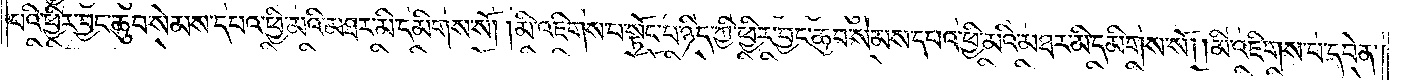པའི་ཕྱིར་བྱང་ཆུབ་སེམས་དཔའ་ཕྱི་མའི་མཐར་མི་དམིགས་སོ། །མི་འཇིགས་པ་སྟོང་པ་ཉིད་ཀྱི་ཕྱིར་བྱང་ཆུབ་སེམས་དཔའ་ཕྱི་མའི་མཐར་མི་དམིགས་སོ། །མི་འཇིགས་པ་དབེན་
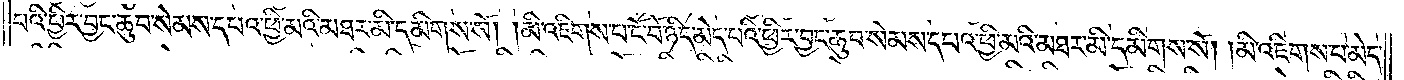པའི་ཕྱིར་བྱང་ཆུབ་སེམས་དཔའ་ཕྱི་མའི་མཐར་མི་དམིགས་སོ། །མི་འཇིགས་པ་ངོ་བོ་ཉིད་མེད་པའི་ཕྱིར་བྱང་ཆུབ་སེམས་དཔའ་ཕྱི་མའི་མཐར་མི་དམིགས་སོ། །མི་འཇིགས་པ་མེད་
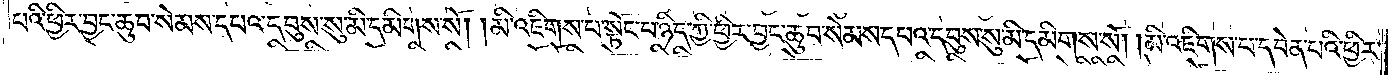པའི་ཕྱིར་བྱང་ཆུབ་སེམས་དཔའ་དབུས་སུ་མི་དམིགས་སོ། །མི་འཇིགས་པ་སྟོང་པ་ཉིད་ཀྱི་ཕྱིར་བྱང་ཆུབ་སེམས་དཔའ་དབུས་སུ་མི་དམིགས་སོ། །མི་འཇིགས་པ་དཔེན་པའི་ཕྱིར་
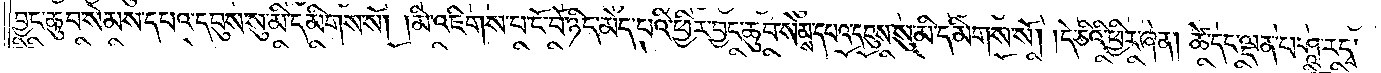བྱང་ཆུབ་སེམས་དཔའ་དབུས་སུ་མི་དམིགས་སོ། །མི་འཇིགས་པ་ངོ་བོ་ཉིད་མེད་པའི་ཕྱིར་བྱང་ཆུབ་སེམས་དཔའ་དབུས་སུ་མི་དམིགས་སོ། །དེ་ཅིའི་ཕྱིར་ཞེ་ན། ཚེ་དང་ལྡན་པ་ཤཱ་རདྭ་
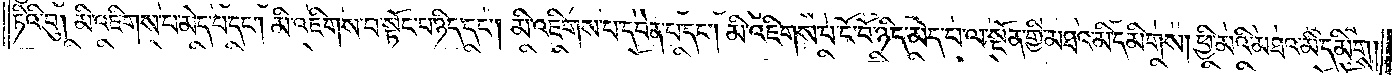ཏིའི་བུ། མི་འཇིགས་པ་མེད་པ་དང༌། མི་འཇིགས་པ་སྟོང་པ་ཉིད་དང༌། མི་འཇིགས་པ་དབེན་པ་དང༌། མི་འཇིགས་པ་ངོ་བོ་ཉིད་མེད་པ་ལ་སྔོན་གྱི་མཐའ་མི་དམིགས། ཕྱི་མའི་མཐའ་མི་དམིགས།
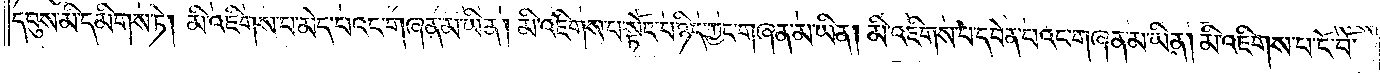དབུས་མི་དམིགས་ཏེ། མི་འཇིགས་པ་མེད་པའང་གཞན་མ་ཡིན། མི་འཇིགས་པ་སྟོང་པ་ཉིད་ཀྱང་གཞན་མ་ཡིན། མི་འཇིགས་པ་དབེན་པའང་གཞན་མ་ཡིན། མི་འཇིགས་པ་ངོ་བོ་
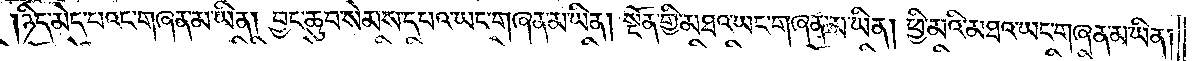ཉིད་མེད་པའང་གཞན་མ་ཡིན། བྱང་ཆུབ་སེམས་དཔའ་ཡང་གཞན་མ་ཡིན། སྔོན་གྱི་མཐའ་ཡང་གཞན་མ་ཡིན། ཕྱི་མའི་མཐའ་ཡང་གཞན་མ་ཡིན།
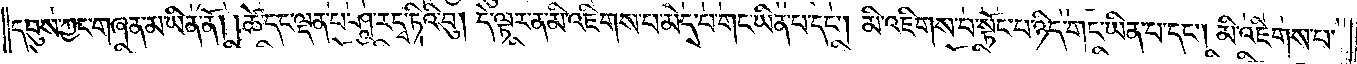དབུས་ཀྱང་གཞན་མ་ཡིན་ནོ། །ཚེ་དང་ལྡན་པ་ཤཱ་རདྭ་ཏིའི་བུ། དེ་ལྟར་ན་མི་འཇིགས་པ་མེད་པ་གང་ཡིན་པ་དང༌། མི་འཇིགས་པ་སྟོང་པ་ཉིད་གང་ཡིན་པ་དང༌། མི་འཇིགས་པ་
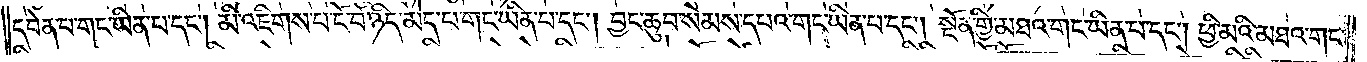དབེན་པ་གང་ཡིན་པ་དང༌། མི་འཇིགས་པ་ངོ་བོ་ཉིད་མེད་པ་གང་ཡིན་པ་དང༌། བྱང་ཆུབ་སེམས་དཔའ་གང་ཡིན་པ་དང༌། སྔོན་གྱི་མཐའ་གང་ཡིན་པ་དང༌། ཕྱི་མའི་མཐའ་གང་
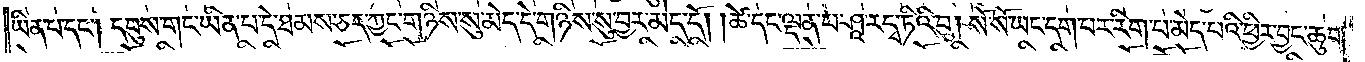ཡིན་པ་དང༌། དབུས་གང་ཡིན་པ་དེ་ཐམས་ཅད་ཀྱང་གཉིས་སུ་མེད་དེ་གཉིས་སུ་བྱར་མེད་དོ། །ཚེ་དང་ལྡན་པ་ཤཱ་རདྭ་ཏིའི་བུ། སོ་སོ་ཡང་དག་པར་རིག་པ་མེད་པའི་ཕྱིར་བྱང་ཆུབ་
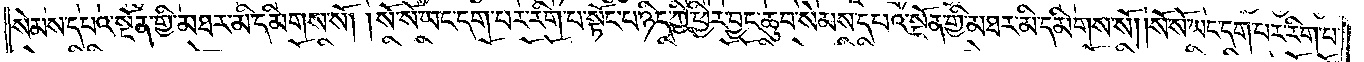སེམས་དཔའ་སྔོན་གྱི་མཐར་མི་དམིགས་སོ། །སོ་སོ་ཡང་དག་པར་རིག་པ་སྟོང་པ་ཉིད་ཀྱི་ཕྱིར་བྱང་ཆུབ་སེམས་དཔའ་སྔོན་གྱི་མཐར་མི་དམིགས་སོ། །སོ་སོ་ཡང་དག་པར་རིག་པ་
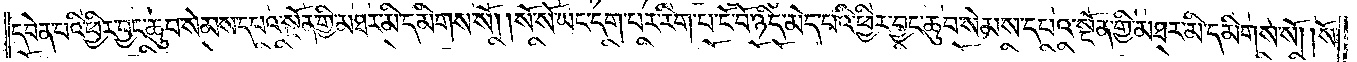དབེན་པའི་ཕྱིར་བྱང་ཆུབ་སེམས་དཔའ་སྔོན་གྱི་མཐར་མི་དམིགས་སོ། །སོ་སོ་ཡང་དག་པར་རིག་པ་ངོ་བོ་ཉིད་མེད་པའི་ཕྱིར་བྱང་ཆུབ་སེམས་དཔའ་སྔོན་གྱི་མཐར་མི་དམིགས་སོ། །སོ་
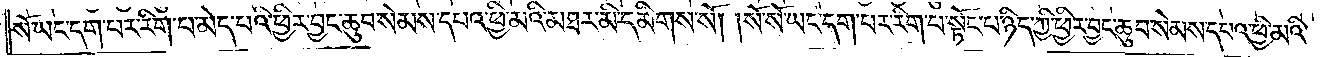སོ་ཡང་དག་པར་རིག་པ་མེད་པའི་ཕྱིར་བྱང་ཆུབ་སེམས་དཔའ་ཕྱི་མའི་མཐར་མི་དམིགས་སོ། །སོ་སོ་ཡང་དག་པར་རིག་པ་སྟོང་པ་ཉིད་ཀྱི་ཕྱིར་བྱང་ཆུབ་སེམས་དཔའ་ཕྱི་མའི་
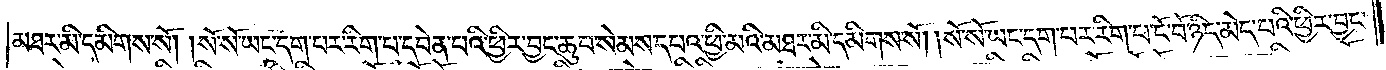མཐར་མི་དམིགས་སོ། །སོ་སོ་ཡང་དག་པར་རིག་པ་དབེན་པའི་ཕྱིར་བྱང་ཆུབ་སེམས་དཔའ་ཕྱི་མའི་མཐར་མི་དམིགས་སོ། །སོ་སོ་ཡང་དག་པར་རིག་པ་ངོ་བོ་ཉིད་མེད་པའི་ཕྱིར་བྱང་
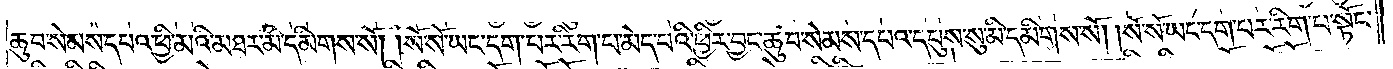ཆུབ་སེམས་དཔའ་ཕྱི་མའི་མཐར་མི་དམིགས་སོ། །སོ་སོ་ཡང་དག་པར་རིག་པ་མེད་པའི་ཕྱིར་བྱང་ཆུབ་སེམས་དཔའ་དབུས་སུ་མི་དམིགས་སོ། །སོ་སོ་ཡང་དག་པར་རིག་པ་སྟོང་
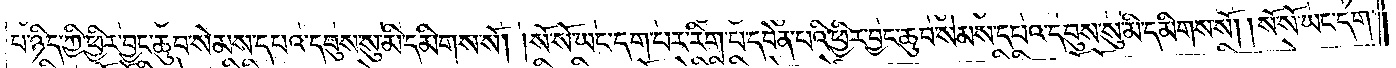པ་ཉིད་ཀྱི་ཕྱིར་བྱང་ཆུབ་སེམས་དཔའ་དབུས་སུ་མི་དམིགས་སོ། །སོ་སོ་ཡང་དག་པར་རིག་པ་དབེན་པའི་ཕྱིར་བྱང་ཆུབ་སེམས་དཔའ་དབུས་སུ་མི་དམིགས་སོ། །སོ་སོ་ཡང་དག་
